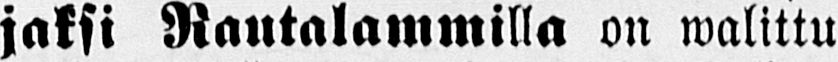jaksi Rautalammilla on walittu
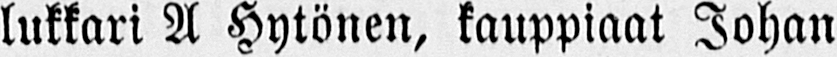lukkari A Hytönen, kauppiaat Johan
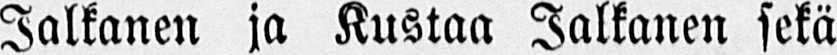Jalkanen ja Kustaa Jalkanen sekä
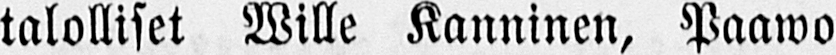talolliset Wille Kanninen, Paawo
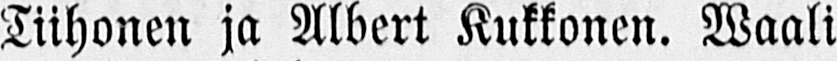Tiihonen ja Albert Kukkonen. Waali
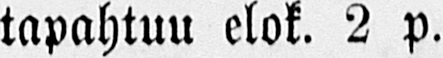tapahtuu elok. 2 p.
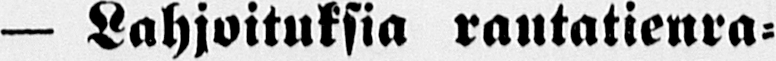— Lahjoituksia rautatienra-
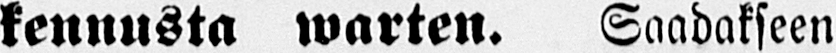kennusta warten. Saadakseen
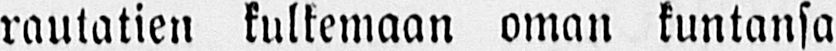rautatien kulkemaan oman kuntansa
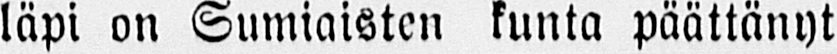läpi on Sumiaisten kunta päättänyt
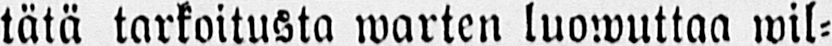tätä tarkoitusta warten luowuttaa wil-
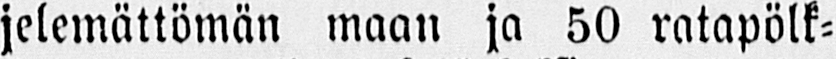jelemättömän maan ja 50 ratapölk-
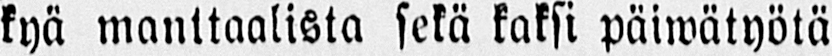kyä manttaalista sekä kaksi päiwätyötä
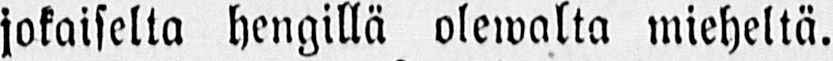jokaiselta hengillä olewalta mieheltä.
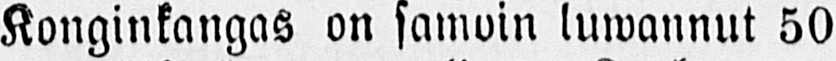Konginkangas on samoin luwannut 50
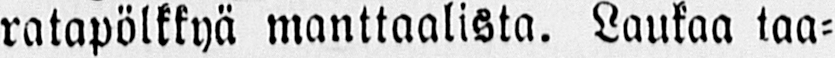ratapölkkyä manttaalista. Laukaa taa-
